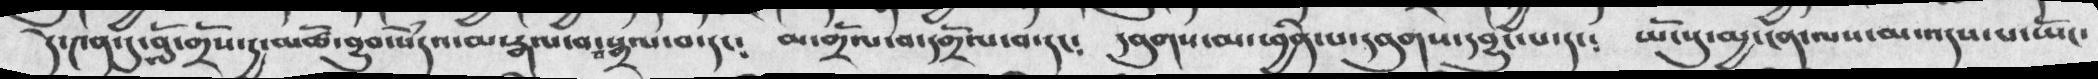དེ༤ན་དུ་བློ་གྲོས་རྱ་མཚོ་བྱུབ་སེཾདའ་མ་རྒལ་བ་བསྒྲལ་བ་དང༴  མ་གྲོལ་བ་དགྲོལ་བ་དང་    དབུགས་མ་བྱིན་པ་དབུགས་དབྱུང་པ་དང༴   ཡོངསུ་མྱ་ངན་ལས་མ་འདས་པ་ཡོང་
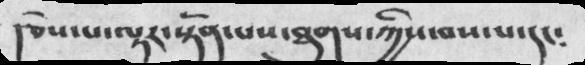།ཅེས་པ་ལྟར་སྟོན་པས་ཐུགས་ཀྱིས་བས་པ་དང༴
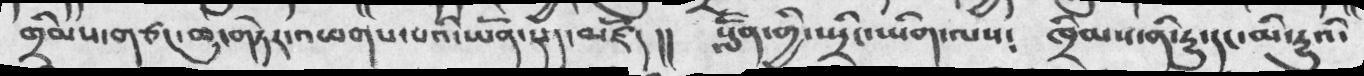ཁྲིམས་གཙང་ཆུ་གཏེར་འཕགས་པའི་ཡོན་ཏན་མཛོད།།  སློོན་གྱི་སྤྲིང་ཡིག་ལས༴   ཁྲིམས་ནི་དྱུ་དང་མི་དྱུའི་
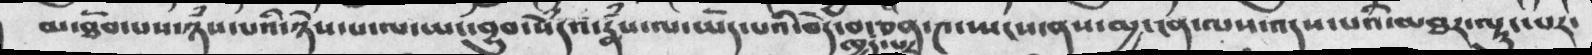མ་ཐོབ་པས་ཉམས་པའི་ཉེས་པ་ལ་ཡང་བྱུབ་སེཾདའ་རྣཾས་ལ་ཡོད་པའི་བདེ་བ་ཁྱད་པར་ཅན་༤་སྤངས་ནས་མྱ་ངན་ལས་འདས་པའི་མཐར་ལྟུང་པར་
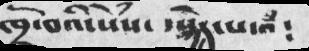ཁྲོ་བའ་སེཾས་ བསྐྱེད་པ་འཾ༴
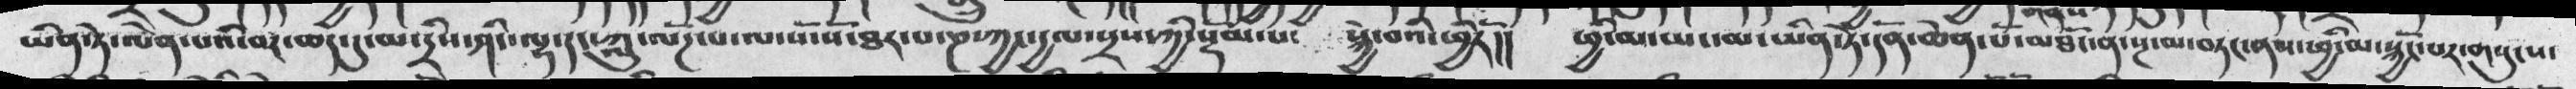ཡིན་ཏེ་ལེན་པའི་བར་ཆད་དུ་མ་དྲིས་ཤིང་ལྷ་དང་ཀླུ་ལོཌ་པ་ལ་སོ་སོ་ཐར་པ་ཎ་ཀྱང་དྱལ་སྲས་ཀྱི་སྡོམ་པ་    སྐྱེ་བའི་ཕྱིར།།   ཕྱི་མ་ཡང་མ་ཡིན་ཏེ་དོན་ཆེན་པོ་མཐོང་ན་སྔ་མ་བཏང་ནས་ཕྱི་མ་སྐྱོང་པར་གསུངས་
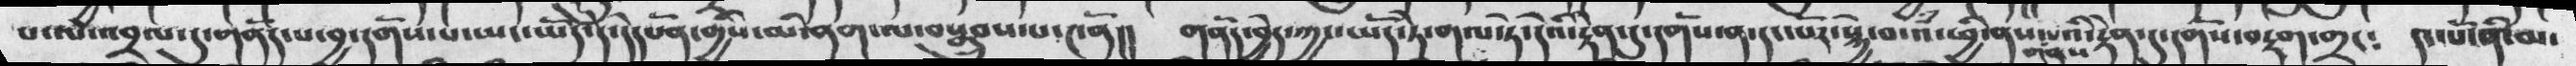པ་ལ་འབྲལ་དུ་གནོད་པ་བྱ་དགོས་པ་ཡང་ཡོད་དེ་དེདཔོན་གྱིས་མི་ནག་ལ་བསྒྲུབས་པ་༤ནོ།།   གནོད་བྱེད་ཀྱང་ཡོད་ཏེ་གལ་ཏེ་དེའི་རྟེན་དུ་དགོས་ན་དང་པོར་སྐྱེ་བ་འཾ་ཕྱི་ནས་གནས་པའི་རྟེན་དུ་དགོས་བརྟག་གྲང༴   དང་པོ་ནི་མ་
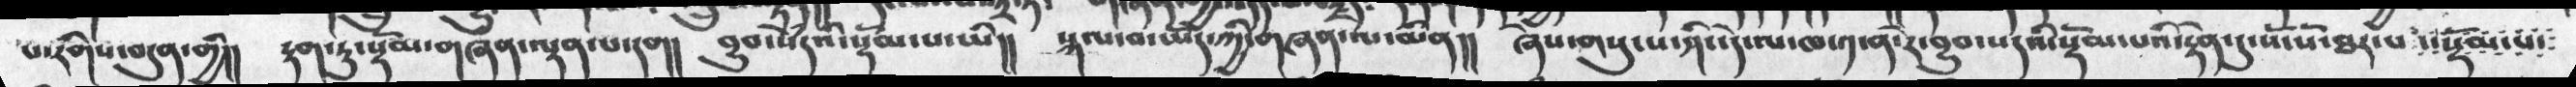པ་རིགས་བདུན་གྱི།།  རྟག་ཏུ་སྡོམ་གཞན་ལྡན་པ་དག།   བྱུབ་སེཾདའི་སྡོམ་པ་ཡི།།   སྐལ་བ་ཡོད་ཀྱི་གཞན་ལ་མིན།།  ཞེས་གསུངས་ཤིང་དེ་ལ་ཁ་༡་ན་རེ་བྱུབ་སེདའི་སྡོམ་པའི་རྟེན་དུ་སོ་སོ་ཐར་པ་སྡོམ་པ་
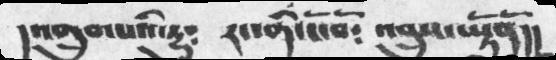།འགྲུབ་པའི་རྱུ༴  རང་གི་ངོ་བོ༴  འབྲུས་ཡྟོནོ།།
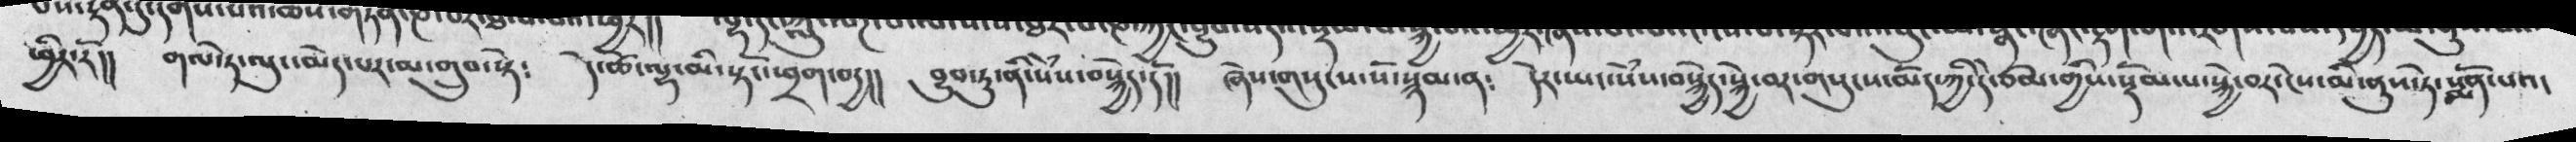ཕྱིར་རོ།།   གལ་ཏེ་ལུང་མེད་པར་མ་གྲུབ་སྟེ༴   དེ་ཚེ་ལྷ་མི་སྟོང་ཕྲག་བདྱ།།   བྱུབ་ཏུ་ནི་སེཾས་བསྐྱེད་དོ།།   ཞེས་གསུངས་སོ་སྙམ་ན༴   དེར་ཡང་སེཾས་བསྐྱེད་སྐྱེ་བར་གསུངས་མེད་ཀྱི་དེ་ཙམ་གྱིས་སྡོམ་པ་སྐྱེ་བར་ངེས་མི་ནུས་ཏེ་སྨོན་པའ་
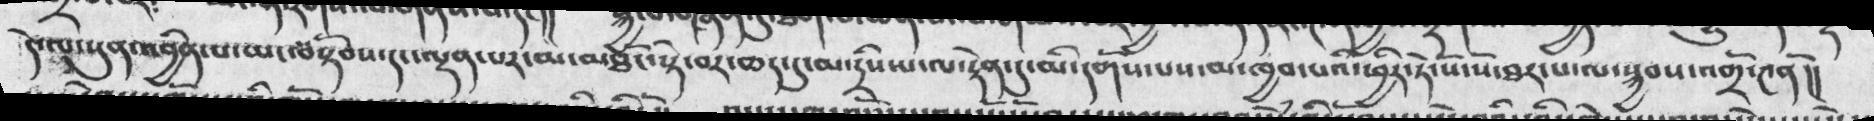དེ་ལ་སུན་འབྱིན་པ་ལ་བསྟོམས་དང་ལྡན་པར་མ་མཐོང་སྟེ་བར་ཆད་དུ་མ་དྲིས་པ་ལ་རྟེན་དུ་མི་དགོས་པས་མ་ཁྱབ་པའི་ཕྱིར་ཏེ་སོ་སོ་ཐར་པ་ལ་སྐྱབས་འགྲོ་༤ནོ།།
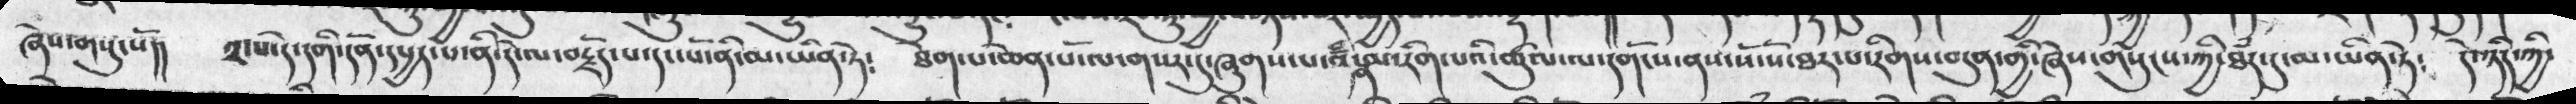ཞེས་གསུངསོ།།  ༢་པ་དེ་དགི་དོན་དཔྱད་པ་ནི་དེ་ལ་བརྗོད་པ་དང་པོ་ནི་མ་ཡིན་ཏེ༴   ཐེག་པ་ཆེན་པོ་ལ་གསར་དུ་ཞུགས་པ་འཾ་མ་རིག་པའི་ཚུལ་ལ་དགོངས་ནས་སོ་སོ་ཐར་པ་རིགས་བདུན་གྱི་ཞེས་གསུངས་ཀྱི་ཐཾད་དུ་མ་ཡིན་ཏེ༴   དེ་ཉིད་ཀྱི་
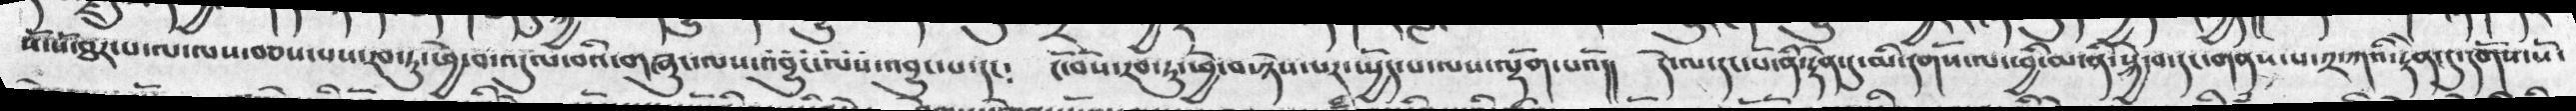སོ་སོ་ཐར་པ་ལ་ལས་བཅས་པས་རབ་ཏུ་ཕྱེ་བ་འདུལ་བའི་གཞུང་ལས་འབྱུང་ལས་འབྱུང་པ་དང༴   ངོ་བོས་རབ་ཏུ་ཕྱེ་བ་ཉེས་པར་སྤྱོད་པ་ལས་ལྡོག་པའོ།།  དེ་ལ་དང་པོ་ནི་རྟེན་དུ་མི་དགོས་ལ་ཕྱི་མ་ནི་སྐྱེ་བ་དང་གནས་པ་༢་ཀའི་རྟེན་དུ་དགོས་སོ་
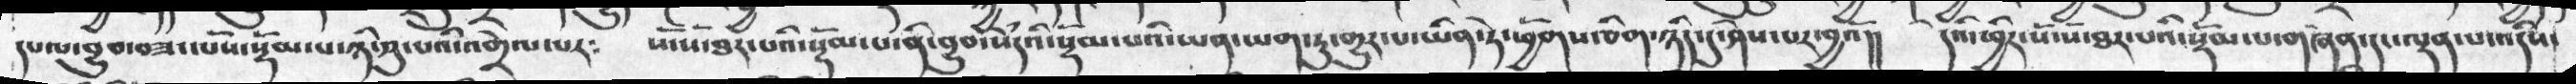དཔལ་བྱུབ་བཟང་པོས་སྡོམ་པ་ཉི་ཤུ་པའི་འགྲེལ་པར༴   སོ་སོ་ཐར་པའི་སྡོམ་པ་ནི་བྱུབ་སེཾདའི་སྡོམ་པའི་ཡན་ལག་ཏུ་གྱུར་པ་ཡིན་ཏེ་ཕྱོགས་ཅིག་ཉིད་དུ་ཤེས་པར་བྱའོ།།   དེའི་ཕྱིར་སོ་སོ་ཐར་པའི་སྡོམ་པ་གཞན་དང་ལྡན་པ་འདིས་
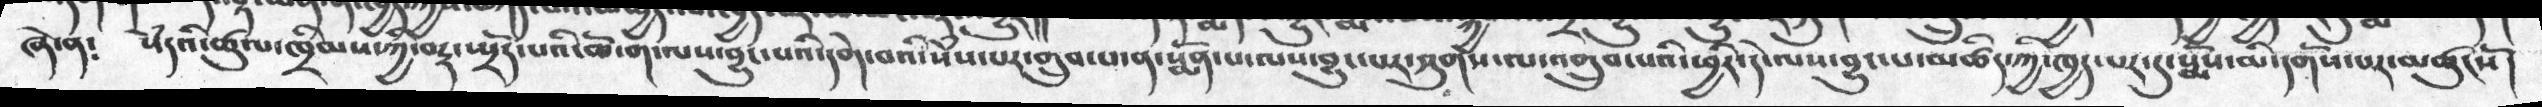ཞེ་ན༴  སེཾདའི་ཚུལ་ཁྲིམས་ཀྱི་བརྡ་སྤྲོད་པའི་ཆོ་ག་ལས་བྱུང་པའི་དགེ་བའི་སེཾས་པར་གྲུབ་པ་ན་སྨོན་པ་ལས་བྱུང་པར་ཤུགས་ལ་འགྲུབ་པའི་ཕྱིར་དེ་ལས་བྱུང་པ་མཚིད་ཀྱི་ཁྱད་པར་དུ་སྨོས་མི་དགོས་པར་མཚུངསོ།
